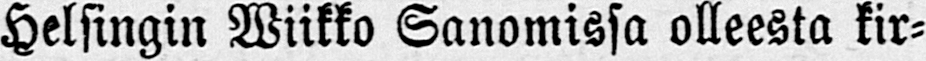Helsingin Wiikko Sanomissa olleesta kir-
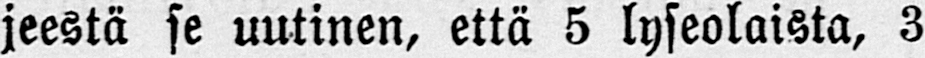jeestä se uutinen, että 5 lyseolaista, 3
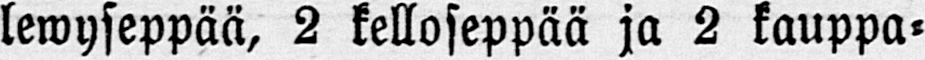lewyseppää, 2 kelloseppää ja 2 kauppa-
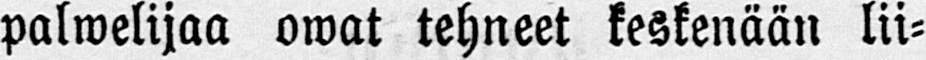palwelijaa owat tehneet keskenään lii-
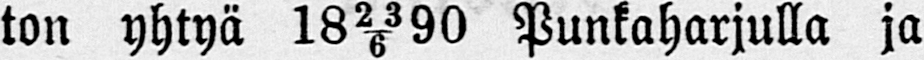ton yhtyä 18 23/6 90 Punkaharjulla ja
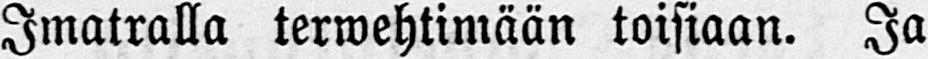Imatralla terwehtimään toisiaan. Ja
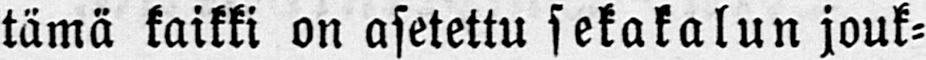tämä kaikki on asetettu sekakalun jouk-
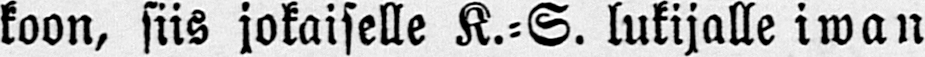koon, siis jokaiselle K.-S. lukijalle iwan
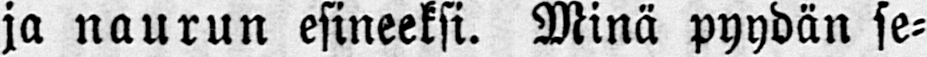ja naurun esineeksi. Minä pyydän se-
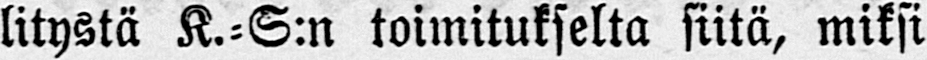litystä K.-S:n toimitukselta siitä, miksi
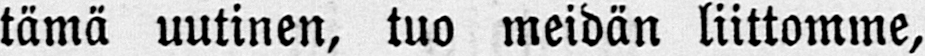tämä uutinen, tuo meidän liittomme,
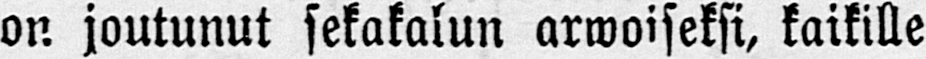on joutunut sekakalun arwoiseksi, kaikille
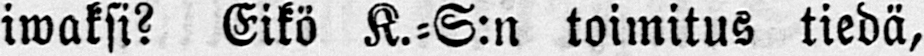iwaksi? Eikö K.-S:n toimitus tiedä,
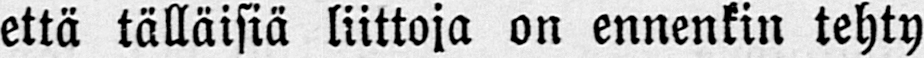että tällaisia liittoja on ennenkin tehty
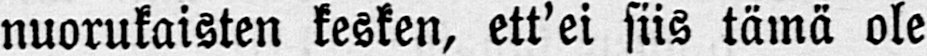nuorukaisten kesken, ett'ei siis tämä ole
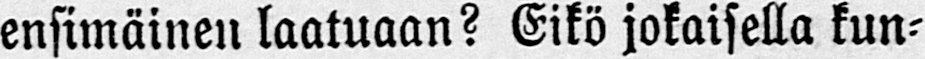ensimäinen laatuaan? Eikö jokaisella kun-
